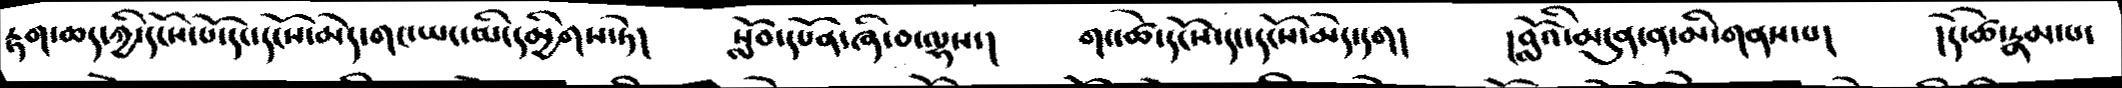རྟག་ཆད་ཀྱི་དངོས་པོ་དང་དངོས་མེད་གང་ཡང་མི་དམྱིགས་ཏེ།   སློབ་དཔོན་ཞི་བ་ལྷས་།   གང་ཚེ་དངོས་དང་དངོས་མེད་དག།   །བློའི་མདུན་ན་མི་གནས་པ།   །དེ་ཚེ་རྣམ་པ་
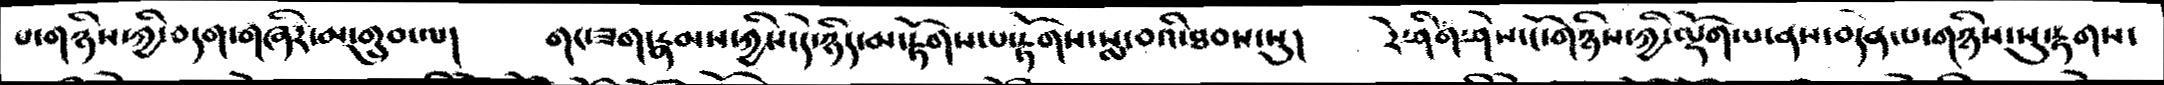པ་གཉིས་ཀྱི་བདག་གཞིར་མ་གྲུབ་ལ།   གང་ཟག་རྣམས་ཀྱིས་དེ་ཉིད་མ་རྟོགས་པ་རྟོགས་སླ་བའི་ཐབས་སུ།   རེ་ཤིག་ཤེས་ངོ་གཉིས་ཀྱི་ལྡོག་པ་ནས་བདེན་པ་གཉིས་སུ་རྟགས་
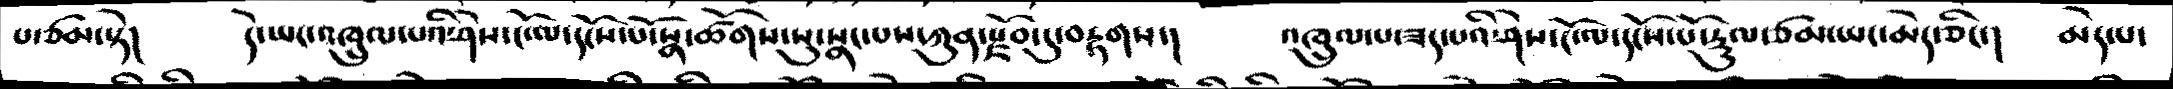པ་ཙམ་སྟེ།   དེ་ཡང་འཁྲུལ་པའི་ཤེས་ངོ་ལ་དངོས་པོ་སྣ་ཚོགས་སུ་སྣང་པས་ཀུན་རྫོབ་དུ་བརྟགས་།   འཁྲུལ་པ་ཟད་པའི་ཤེས་ངོ་ལ་དངོས་པོ་རྡུལ་ཙམ་ཡང་མེད་ཅིང་།  མེད་པ་
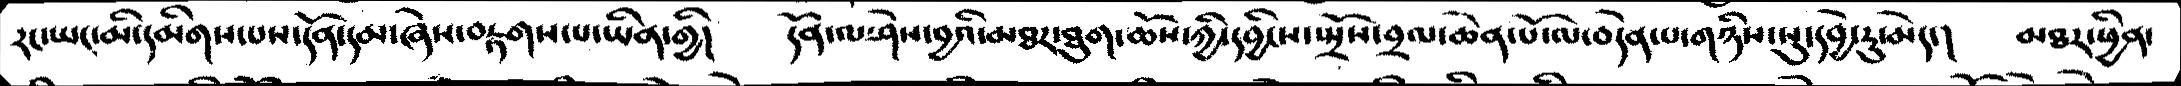རང་ཡང་མི་དམིགས་པས་དོན་དམ་ཞེས་བརྟགས་པ་ཡིན་གྱི།   དོན་ལ་ཤེས་བྱའི་མཐར་ཐུག་ཆོས་ཀྱི་དབྱིངས་སྤྲོས་བྲལ་ཆེན་པོ་ལ་བདེན་པ་གཉིས་སུ་དབྱེ་རུ་མེད་།   མཐར་ཕྱིན་
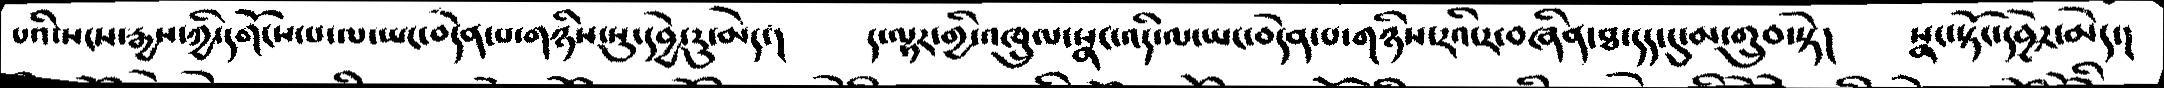པའི་སངས་རྒྱས་ཀྱི་དགོངས་པ་ལ་ཡང་བདེན་པ་གཉིས་སུ་དབྱེ་རུ་མེད་།  ད་ལྟར་གྱི་འཁྲུལ་སྣང་འདི་ལ་ཡང་བདེན་པ་གཉིས་རའི་ར་བཞིན་ཐ་དད་དུ་མ་གྲུབ་སྟེ།  སྣང་སྟོང་དབྱེར་མེད་།
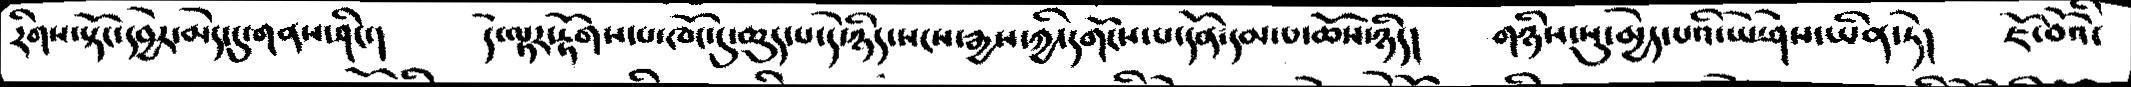རིགས་སྟོང་དབྱེར་མེད་དུ་གནས་ཤིང་།   དེ་ལྟར་རྟོགས་པ་ཁོང་དུ་ཆུད་པ་དེ་ཉིད་སངས་རྒྱས་ཀྱི་དགོངས་པ་དོན་དམ་པ་ཆོས་ཉིད།   གཉིས་སུ་མྱེད་པའི་ཡེ་ཤེས་ཡིན་ཏེ།   ཇོ་བོའི་
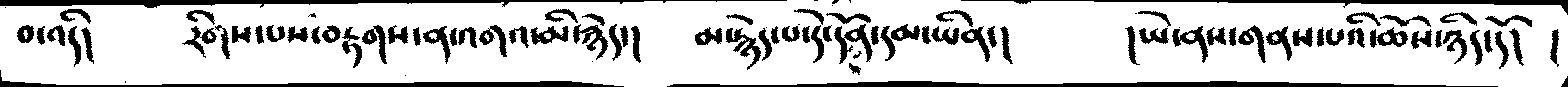བ་འདི།   རིགས་པས་བརྟགས་ན་འགའ་མི་རྙེད་།   མ་རྙེད་པ་དེ་དོན་དམ་ཡིན་།   །ཡེ་ནས་གནས་པའི་ཆོས་ཉིད་དོ།  །
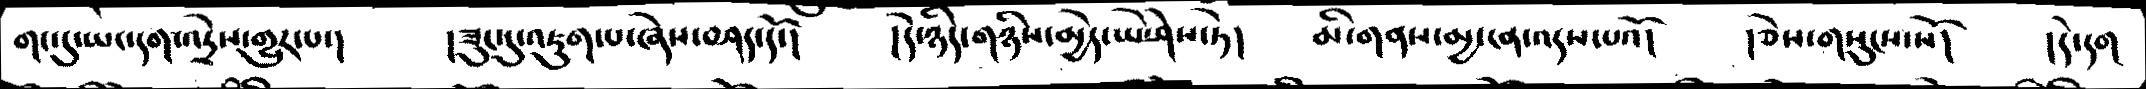གང་དུ་ཡང་དག་འདྲེས་གྱུར་པ་།   །ཟུང་དུ་འཇུག་པ་ཞེས་བཤད་དོ་།   །དེ་ཉིད་གཉིས་མྱེད་ཡེ་ཤེས་ཏེ།    མི་གནས་མྱངན་འདས་པའོ།   །ཅེས་གསུངས་སོ།   །དེ་དག
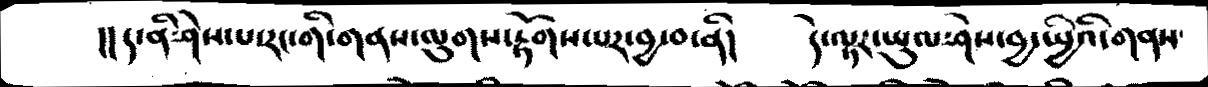།།ད་ནི་ཤེས་པ་རང་གི་གནས་ལུགས་རྟོགས་པར་བྱ་བ་ནི།    དེ་ལྟར་ཡུལ་ཤེས་བྱ་སྤྱིའི་གནས་
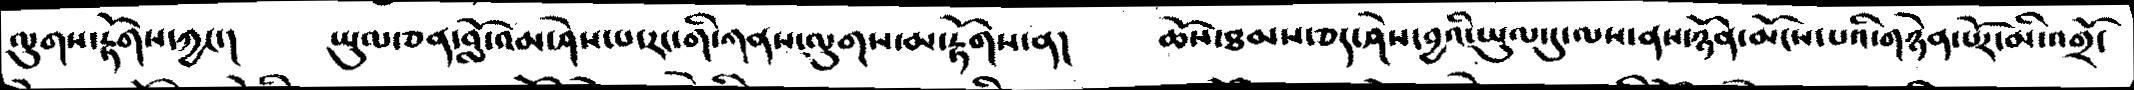ལུགས་རྟོགས་ཀྱང་།   ཡུལ་ཅན་བློ་འམ་ཤེས་པ་རང་གི་གནས་ལུགས་མ་རྟོགས་ན།   ཆོས་ཐམས་ཅད་ཤེས་བྱའི་ཡུལ་དུ་ལས་ནས་ཉོན་མོངས་པའི་གཉེན་པོར་མི་འགྲོ་
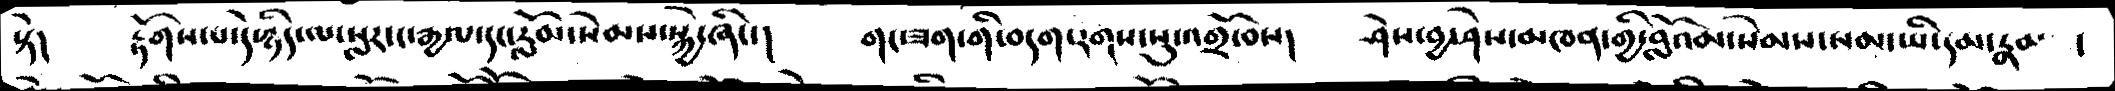སྟེ།   རྟོགས་པ་དེ་ཉིད་ལ་སླར་ང་རྒྱལ་དང་རློམ་སེམས་སྐྱེ་ཞིང་།   གང་ཟག་གི་བདག་རགས་སུ་འགྲོ་བས།   ཤེས་བྱ་ཤེས་མཁན་གྱི་བློའམ་སེམས་སམ་ཡི་དམ་རྣམ ་
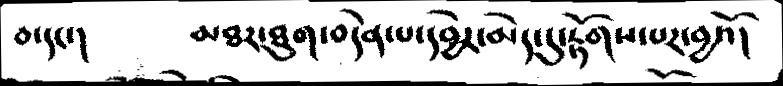བ་དང་།    མཐར་ཐུག་བདེན་པ་དབྱེར་མེད་དུ་རྟོགས་པར་བྱའོ།
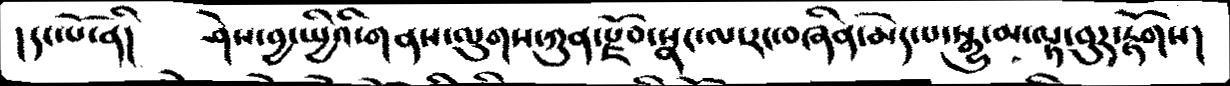།དང་པོ་ནི།   ཤེས་བྱ་སྤྱིའི་གནས་ལུགས་ཀུན་རྫོབ་སྣང་ལ་རང་བཞིན་མེད་པ་སྒྱུ་མ་ལྟ་བུར་རྟོགས།
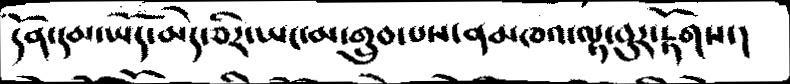དོན་དམ་ཡོད་མེད་ཅིར་ཡང་མ་གྲུབ་པས་ནམཁའ་ལྟ་བུར་རྟོགས་།
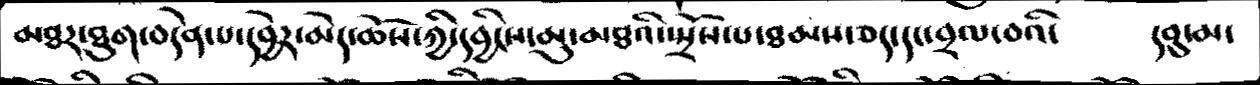མཐར་ཐུག་བདེན་པ་དབྱེར་མེད་ཆོས་ཀྱི་དབྱིངས་མུ་མཐའི་སྤྲོས་པ་ཐམས་ཅད་དང་བྲལ་བའི་     དབུ་མ་
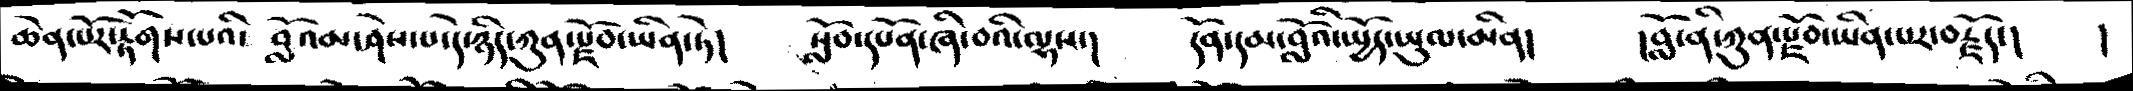ཆེན་པོར་རྟོགས་པའི་ བློའམ་ཤེས་པ་དེ་ཉིད་ཀུན་རྫོབ་ཡིན་ཏེ།   སློབ་དཔོན་ཞི་བའི་ལྷས་།   དོན་དམ་བློའི་སྤྱོད་ཡུལ་མིན།   །བློ་ནི་ཀུན་རྫོབ་ཡིན་པར་བརྗོད་།   །
